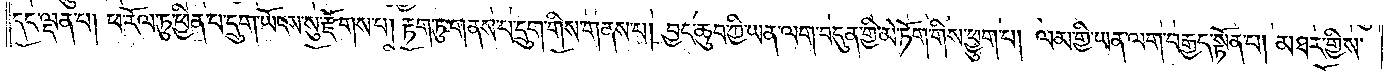དང་ལྡན་པ། ཕ་རོལ་ཏུ་ཕྱིན་པ་དྲུག་ཡོངས་སུ་རྫོགས་པ། རྟག་ཏུ་གནས་པ་དྲུག་གིས་གནས་པ། བྱང་ཆུབ་ཀྱི་ཡན་ལག་བདུན་གྱི་མེ་ཏོག་གིས་ཕྱུག་པ། ལམ་གྱི་ཡན་ལག་བརྒྱད་སྟོན་པ། མཐར་གྱིས་
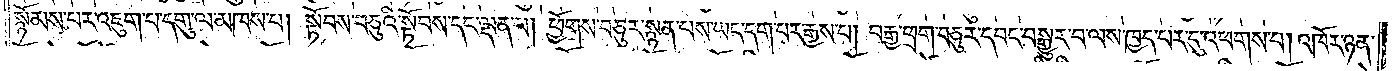སྙོམས་པར་འཇུག་པ་དགུ་ལ་མཁས་པ། སྟོབས་བཅུའི་སྟོབས་དང་ལྡན་པ། ཕྱོགས་བཅུར་སྙན་པས་ཡང་དག་པར་རྒྱས་པ། བརྒྱ་ཕྲག་བཅུར་དབང་བསྒྱུར་བ་ལས་ཁྱད་པར་དུ་འཕགས་པ། འཁོར་ཉན་
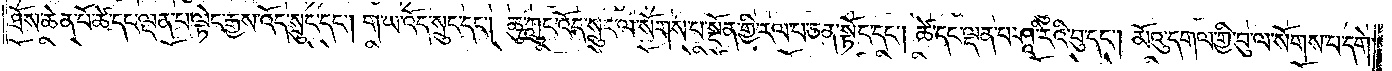ཐོས་ཆེན་པོ་ཚེ་དང་ལྡན་པ་ལྟེང་རྒྱས་འོད་སྲུང་དང༌། ག་ཡ་འོད་སྲུང་དང༌། ཆུ་ཀླུང་འོད་སྲུང་ལ་སོགས་པ་སྔོན་གྱི་རལ་པ་ཅན་སྟོང་དང༌། ཚེ་དང་ལྡན་པ་ཤཱ་རིའི་བུ་དང༌། མོའུ་དགལ་གྱི་བུ་ལ་སོགས་པ་དགེ་
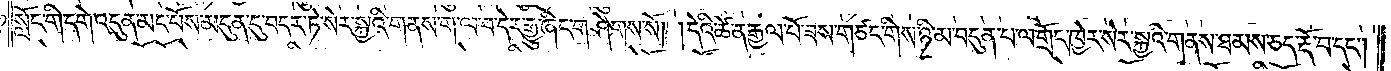སློང་གི་དགེ་འདུན་མང་པོས་མདུན་དུ་བདར་ཏེ་སེར་སྐྱའི་གནས་ག་ལ་བ་དེར་རྒྱུ་ཞིང་གཤེགས་སོ། །དེའི་ཚེ་ན་རྒྱལ་པོ་ཟས་གཙང་གིས་ཉི་མ་བདུན་པ་ལ་གྲོང་ཁྱེར་སེར་སྐྱའི་གནས་ཐམས་ཅད་རྡོ་བ་དང༌།
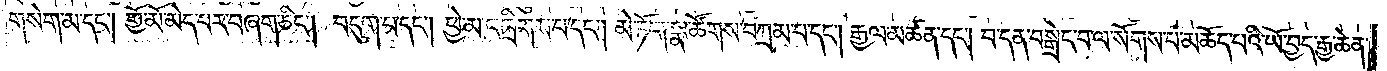གསེག་མ་དང༌། གྱོ་མོ་མེད་པར་བཞག་ཅིང༌། བདུག་པ་དང༌། ཕྱེ་མ་འཁྲིགས་པ་དང༌། མེ་ཏོག་སྣ་ཚོགས་བཀྲམ་པ་དང༌། རྒྱལ་མཚན་དང༌། བ་དན་བསྒྲེང་བ་ལ་སོགས་པ་མཆོད་པའི་ཡོ་བྱད་རྒྱ་ཆེན་
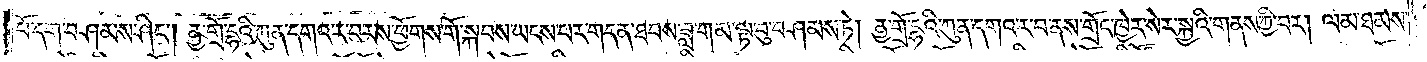པོ་དག་བཤམས་ཤིང༌། ནྱ་གྲོ་དྷའི་ཀུན་དགའ་ར་བར་ས་ཕྱོགས་གོ་སྐབས་ཡངས་པར་གདན་ཐབས་ཟླ་གམ་ལྟ་བུ་བཤམས་ཏེ། ནྱ་གྲོ་དྷའི་ཀུན་དགའ་ར་བ་ནས་གྲོང་ཁྱེར་སེར་སྐྱའི་གནས་ཀྱི་བར། ལམ་ཐམས་
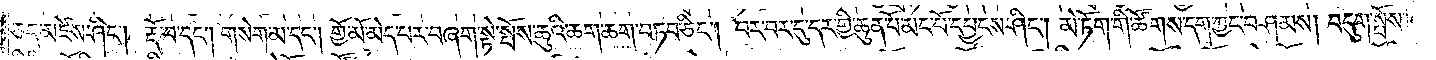ཅད་མཛེས་ཤིང༌། རྡོ་བ་དང༌། གསེག་མ་དང༌། གྱོ་མོ་མེད་པར་བཞག་སྟེ་སྤོས་ཆུའི་ཆག་ཆག་བཏབ་ཅིང༌། བར་བར་དུ་དར་གྱི་ཆུན་པོ་མང་པོ་དཔྱངས་ཤིང༌། མེ་ཏོག་གི་ཚོགས་དག་ཀྱང་བཤམས། བདུག་སྤོས་
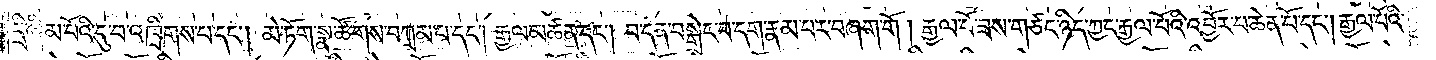དྲི་ཞིམ་པོའི་དུ་བ་འཁྲིགས་པ་དང༌། མེ་ཏོག་སྣ་ཚོགས་བཀྲམ་པ་དང༌། རྒྱལ་མཚན་དང༌། བ་དན་བསྒྲེང་བ་དག་རྣམ་པར་བཞག་གོ། རྒྱལ་པོ་ཟས་གཙང་ཉིད་ཀྱང་རྒྱལ་པོའི་འབྱོར་པ་ཆེན་པོ་དང༌། རྒྱལ་པོའི་
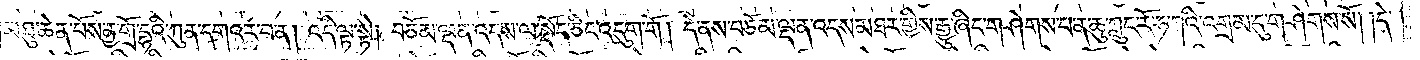མཐུ་ཆེན་པོས་ནྱ་གྲོ་དྷའི་ཀུན་དགའ་ར་བ་ན། འདི་ལྟ་སྟེ། བཅོམ་ལྡན་འདས་ལ་སྡོད་ཅིང་འདུག་གོ །དེ་ནས་བཅོམ་ལྡན་འདས་མཐར་གྱིས་རྒྱུ་ཞིང་གཤེགས་པ་ན་ཆུ་ཀླུང་རོ་ཧ་ཀའི་འགྲམ་དུ་གཤེགས་སོ། །དེ་
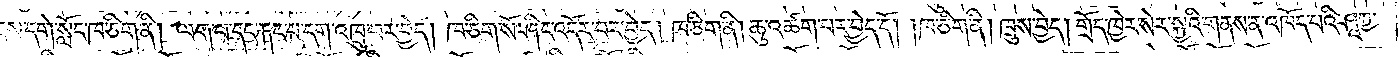ནས་དགེ་སློང་ཁ་ཅིག་ནི། ལག་པ་དང་རྐང་པ་དག་འཁྲུ་བར་བྱེད། ཁ་ཅིག་སོ་ཤིང་འདོར་བར་བྱེད། ཁ་ཅིག་ནི། ཆུ་འཚག་པར་བྱེད་དོ། །ཁ་ཅིག་ནི། ཁྲུས་བྱེད། གྲོང་ཁྱེར་སེར་སྐྱའི་གནས་ན་འཁོད་པའི་ཤཱཀྱ་
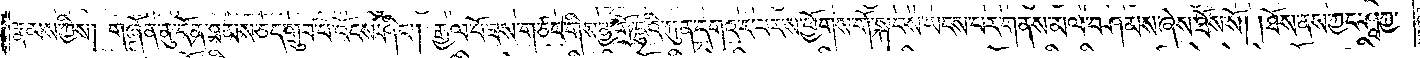རྣམས་ཀྱིས། གཞོན་ནུ་དོན་ཐམས་ཅད་གྲུབ་པ་འོངས་ཤིང༌། རྒྱལ་པོ་ཟས་གཙང་གིས་ནྱ་གྲོ་དྷའི་ཀུན་དགའ་ར་བར་ས་ཕྱོགས་གོ་སྐབས་ཡངས་པར་གནས་མལ་བཤམས་ཞེས་ཐོས་སོ། །ཐོས་ནས་ཀྱང་ཤཱཀྱ་
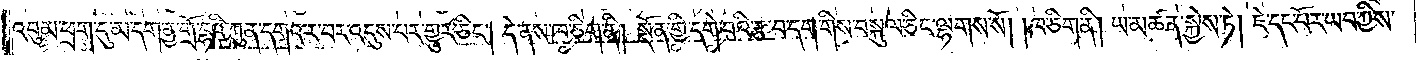འབུམ་ཕྲག་དུ་མ་དག་ནྱ་གྲོ་དྷའི་ཀུན་དགའ་ར་བར་འདུས་པར་གྱུར་ཅིང༌། དེ་ནས་ཁ་ཅིག་ནི། སྔོན་གྱི་དགེ་བའི་རྩ་བ་དག་གིས་བསྐུལ་ཅིང་ལྷགས་སོ། །ཁ་ཅིག་ནི། ཡ་མཚན་སྐྱེས་ཏེ། ཇེ་དང་པོར་ཡབ་ཀྱིས་
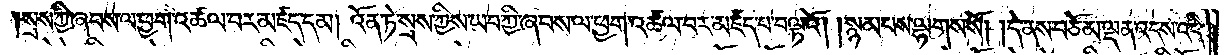སྲས་ཀྱི་ཞབས་ལ་ཕྱག་འཚལ་བར་མཛད་དམ། འོན་ཏེ་སྲས་ཀྱིས་ཡབ་ཀྱི་ཞབས་ལ་ཕྱག་འཚལ་བར་མཛད་པ་བལྟའོ། །སྙམ་པས་ལྷགས་སོ། །དེ་ནས་བཅོམ་ལྡན་འདས་འདི་
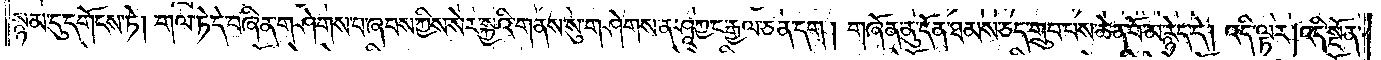སྙམ་དུ་དགོངས་ཏེ། གལ་ཏེ་དེ་བཞིན་གཤེགས་པ་ཞབས་ཀྱིས་སེར་སྐྱའི་གནས་སུ་གཤེགས་ན་ཤཱཀྱ་ང་རྒྱལ་ཅན་དག །གཞོན་ནུ་དོན་ཐམས་ཅད་གྲུབ་པས་ཆེན་པོ་མ་རྙེད་དེ། འདི་ལྟར།འདི་སྔོན་
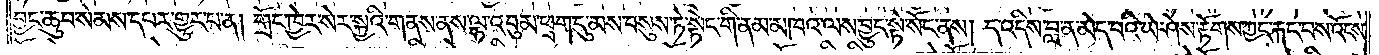བྱང་ཆུབ་སེམས་དཔར་གྱུར་པ་ན། གྲོང་ཁྱེར་སེར་སྐྱའི་གནས་ནས་ལྷ་འབུམ་ཕྲག་དུ་མས་བསུས་ཏེ་སྟེང་གི་ནམ་མཁའ་ལས་བྱུང་སྟེ་སོང་ནས། ད་འདིས་བླ་ན་མེད་པའི་ཡེ་ཤེས་རྟོགས་ཀྱང་རྐང་པས་འོངས་
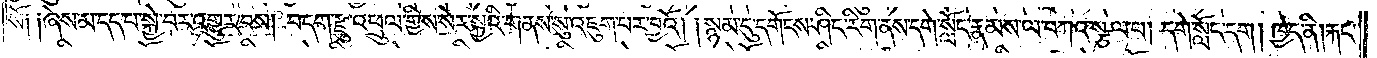སོ༑ ༑ཞེས་མ་དད་པ་སྐྱེ་བར་འགྱུར་བས། བདག་རྫུ་འཕྲུལ་གྱིས་སེར་སྐྱའི་གནས་སུ་འཇུག་པར་བྱའོ། །སྙམ་དུ་དགོངས་ཤིང་རིག་ནས་དགེ་སློང་རྣམས་ལ་བཀའ་སྩལ་པ། དགེ་སློང་དག །ཁྱེད་ནི། རྐང་
